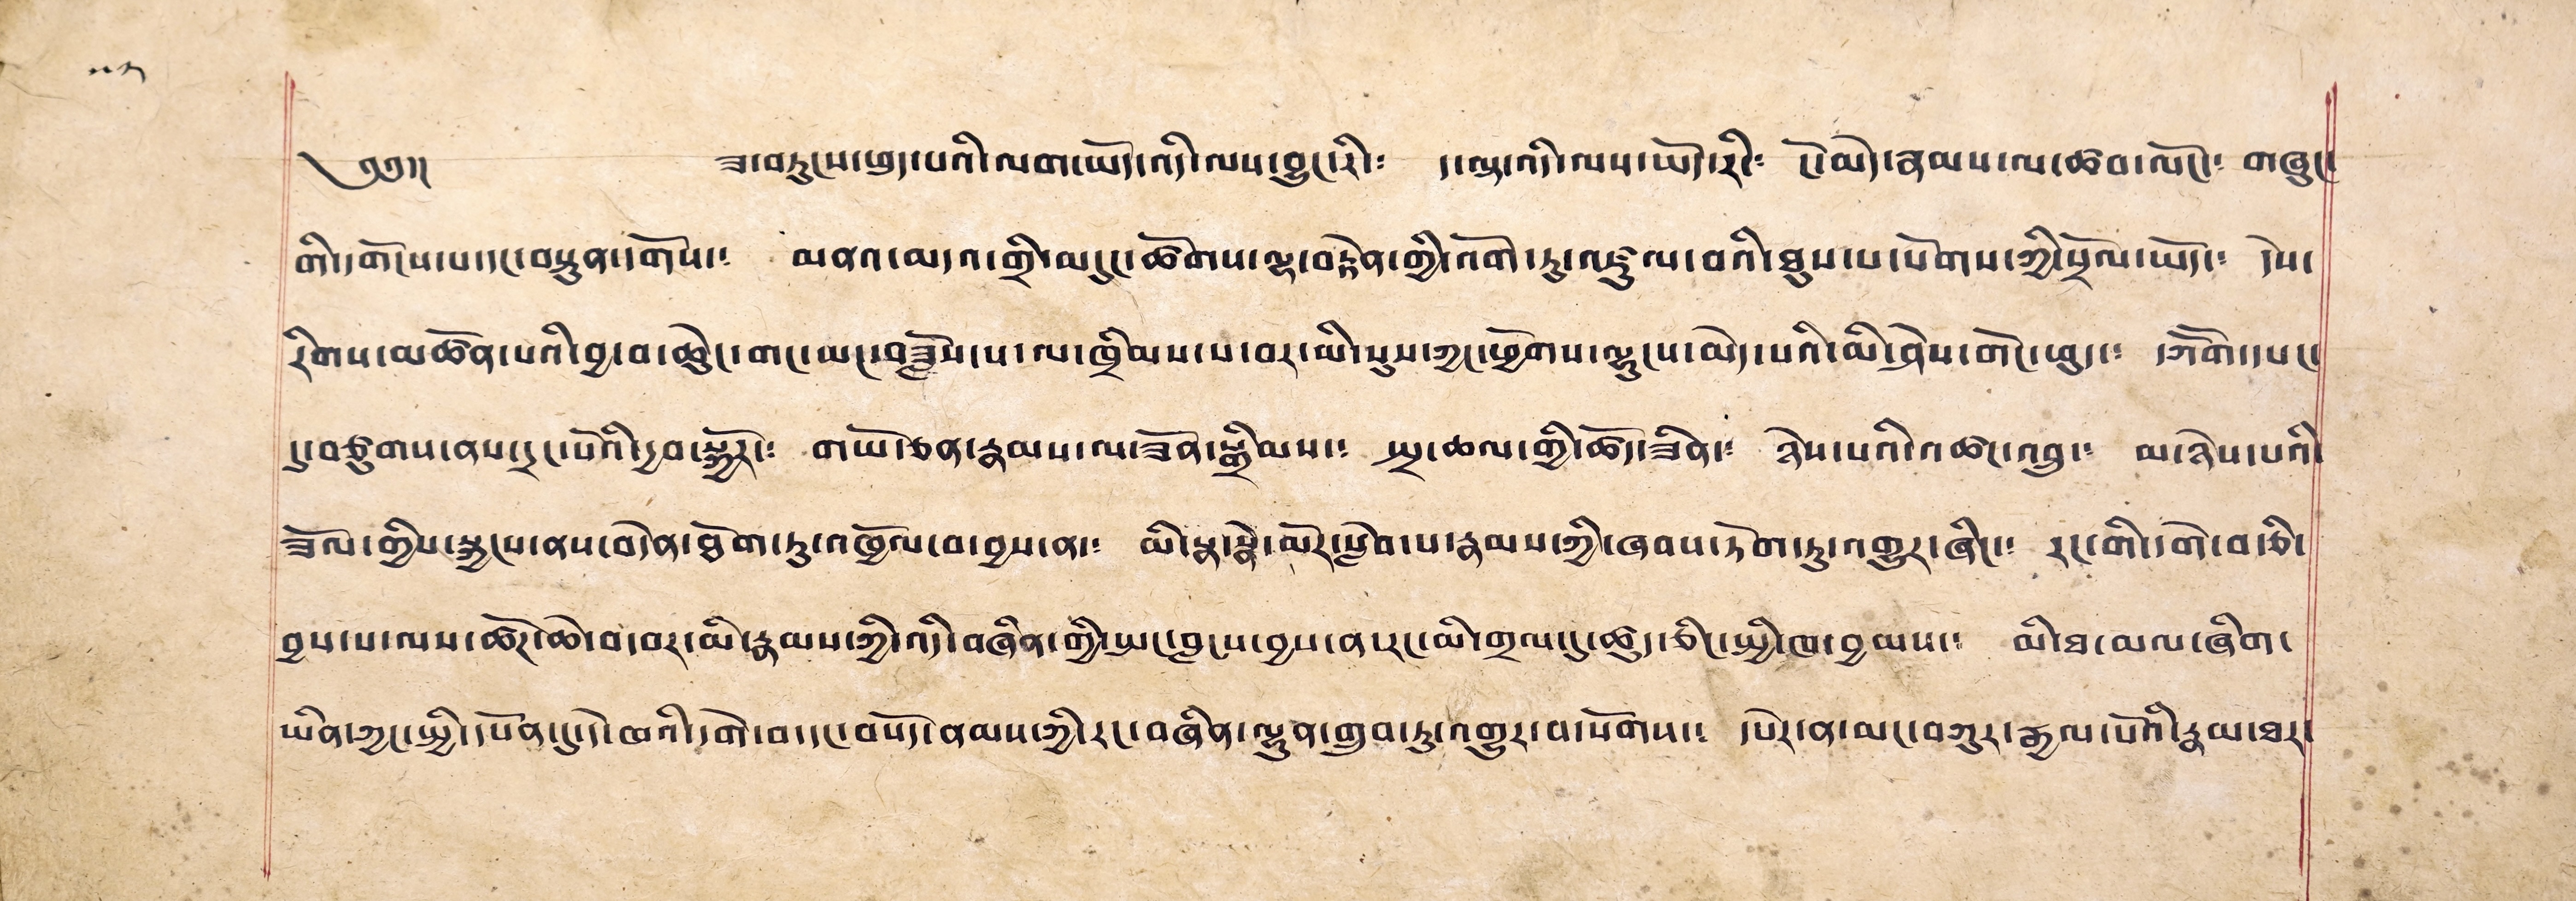༄༅།། ཟ་བཏུངས་ཕུད་པའི་ལག་ཡོད་འདི་ལས་བྱུང་རི་༴ ད་ལྟར་འདི་ལས་ཡོད་རི་༴ ངོ་མེད་རྣམས་ལ་ཚབ་ལོང་༴ གཞུང་
གི་དགོངས་པ་དང་བསྟུན་དགོས་༴ མནའ་མདའ་གྲི་མདུང་ཚོགས་ལྷ་བརྟེན་གྱི་འོག་ཏུ་འཛུལ་བའི་ཐུས་པ་སོགས་ཀྱི་སྲོལ་ཡོད་༴ དེས་
རིགས་མཚོན་པའི་བྱ་བ་ཆེུང་གང་ཡང་བཟློས་པ་ལ་ཁྲིམས་ས་བར་མི་སུས་ཀྱང་ཕྱོགས་ལྷུངས་མེད་པའི་མི་ཤེས་གོང་ཕུད་༴ དཀོན་མཆོག་དཔང་
དུ་བཙུགས་ནས་དྲང་པོའི་དྱབ་སྐྱོར་༴ གཡོ་ཅན་རྣམས་ལ་ཟོན་སྒྲིམས་༴ སྤྲ་ཆལ་གྱི་ཚོད་ཟིན་༴ ཉེས་པའི་འཚང་འབྲུ་༴ མ་ཉེས་པའི་
ཟོལ་གྱིས་སྐྱངས་ནས་བདེན་ཐོག་ཏུ་འཁྱོལ་བ་བྱས་ན་༴ མི་སྣ་སྣེ་མོར་སླེབ་པ་རྣམས་ཀྱི་ཞབས་ཏོག་ཏུ་འགྱུར་ཞིང་༴ རང་གི་དགེ་བ་ཅི་
བྱས་པ་ལས་ཚོཊ་ཆེ་བ་བར་མི་རྣམས་ཀྱི་འདི་བཞིན་གྱི་སྤང་བླངས་བྱས་ན་རང་མི་གྲལ་དུ་ཚུད་ཅིང་སྤྱི་ཁ་བྱམས་༴ མི་ཐ་མལ་ཞིག་
ཡིན་ཀྱང་སྤྱི་དཔོན་དུ་དེ་ཁའི་དགེ་བ་དང་བསོད་ནམས་ཀྱི་རང་བཞིན་ལྷུན་གྲུབ་ཏུ་འགྱུར་བ་སོགས་༴ དཔེར་ན་མང་བཀུར་རྒྱལ་པོའི་རྣམ་ཐར་
